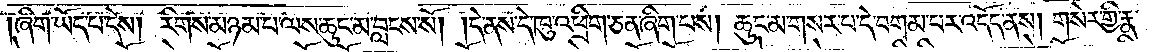ཞིག་ཡོད་པ་དེས། རིགས་མཉམ་པ་ལས་ཆུང་མ་བླངས་སོ། །དེ་ནས་དེ་ཁུ་འཕྲིག་ཅན་ཞིག་པས། ཆུང་མ་གསར་པ་དེ་བགམ་པར་འདོད་ནས། གསེར་གྱི་རྣ་
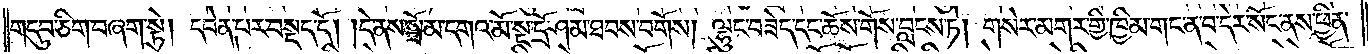གདུབ་ཅིག་བཞག་སྟེ། དབེན་པར་བསྡད་དོ། །དེ་ནས་སྦོམ་དགའ་མོ་སྔ་དྲོ་ཤམ་ཐབས་བགོས། ལྷུང་བཟེད་དང་ཆོས་གོས་བླངས་ཏེ། གསེར་མགར་གྱི་ཁྱིམ་གང་ན་བ་དེར་སོང་ནས་ཕྱིན་
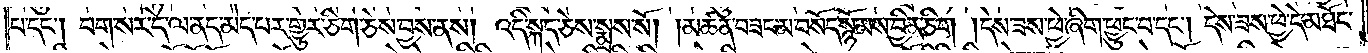པ་དང༌། བག་སར་དེ་ལ་ནད་མེད་པར་གྱུར་ཅིག་ཅེས་བྱས་ནས། འདི་སྐད་ཅེས་སྨྲས་སོ། །མཚན་བཟང་མ་བསོད་སྙོམས་བྱིན་ཅིག །དེས་ཟས་ཕྱེ་ཞིག་ཕྱུང་བ་དང༌། དེས་ཟས་ཕྱེ་དེ་མཐོང་
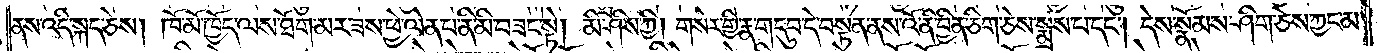ནས་འདི་སྐད་ཅེས། ཁོ་མོ་ཁྱོད་ལས་ཐོག་མར་ཟས་ཕྱེ་ལེན་པ་ནི་མི་བཟང་སྟེ། མི་ཤིས་ཀྱི། གསེར་གྱི་རྣ་གདུབ་དེ་བསྟན་ནས་འོ་ནི་བྱིན་ཅིག་ཅེས་སྨྲས་པ་དང༌། དེས་སྣོམས་ཤིག་ཅེས་ཀྱང་མ་
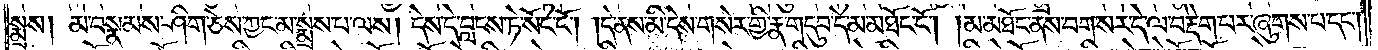སྨྲས། མ་བསྣམས་ཤིག་ཅེས་ཀྱང་མ་སྨྲས་པ་ལས། དེས་དེ་བླངས་ཏེ་སོང་ངོ༌། །དེ་ནས་མི་དེས་གསེར་གྱི་རྣ་གདུབ་དེ་མ་མཐོང་ངོ༌། །མ་མཐོང་ནས་བག་སར་དེ་ལ་བརྡེག་པར་ཞུགས་པ་དང༌།
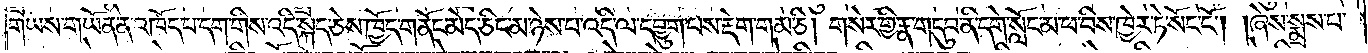གཡས་གཡོན་ནི་འཁོད་པ་དག་གིས་འདི་སྐད་ཅེས་ཁྱོད་གནོང་མེད་ཅིང་མ་ཉེས་པ་འདི་ལ་དབྱུག་པས་རྡེག་གམ་ཅི། གསེར་གྱི་རྣ་གདུབ་ནི་དགེ་སློང་མ་ཕ་བིས་ཁྱེར་ཏེ་སོང་ངོ༌། །ཞེས་སྨྲས་པ་
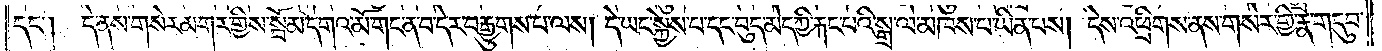དང༌། དེ་ནས་གསེར་མགར་གྱིས་སྦོམ་དགའ་མོ་གང་ན་བ་དེར་བརྒྱུགས་པ་ལས། དེ་ཡང་སྐྱེས་པ་དང་བུད་མེད་ཀྱི་རྐང་པའི་སྒྲ་ལ་མཁས་པ་ཡིན་པས། དེས་འཕྲིགས་ནས་གསེར་གྱི་རྣ་གདུབ་
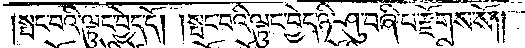སྤང་བའི་ལྟུང་བྱེད་དོ། །སྤང་བའི་ལྟུང་བྱེད་ཉི་ཤུ་བཞི་པ་རྫོགས་སོ༎
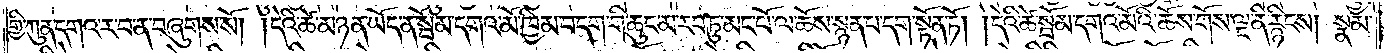གྱི་ཀུན་དགའ་ར་བ་ན་བཞུགས་སོ། །དེའི་ཚེ་མཉན་ཡོད་ན་སྦོམ་དགའ་མོ་ཁྱིམ་བདག་གི་ཆུང་མ་རབ་ཏུ་མང་པོ་ལ་ཆོས་སྙན་པ་དག་སྟོན་ཏོ། །དེའི་ཚེ་སྦོམ་དགའ་མོའི་ཆོས་གོས་ལྔ་ནི་རྙིངས། སྣམ་
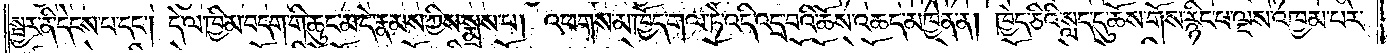སྦྱར་ནི་དེངས་པ་དང༌། དེ་ལ་ཁྱིམ་བདག་གི་ཆུང་མ་དེ་རྣམས་ཀྱིས་སྨྲས་པ། འཕགས་མ་ཁྱོད་གལ་ཏེ་འདི་འདྲ་བའི་ཆོས་འཆད་མཁྱེན་ན། ཁྱེད་ཅིའི་སླད་དུ་ཆོས་གོས་རྙིང་པ་ལྔས་འཁྱམ་པར་
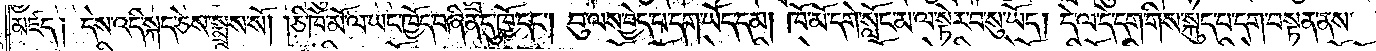མཛད། དེས་འདི་སྐད་ཅེས་སྨྲས་སོ། །ཅི་ཁོ་མོ་ལ་ཡང་ཁྱོད་བཞིན་དུ་ཁྱོ་དང༌། བུ་ལས་བྱེད་པ་དག་ཡོད་དམ། ཁོ་མོ་དགེ་སློང་མ་ལ་སྟེར་བ་སུ་ཡོད། དེ་ལ་དེ་དག་གིས་སྐུད་པ་དག་བསྟན་ནས་
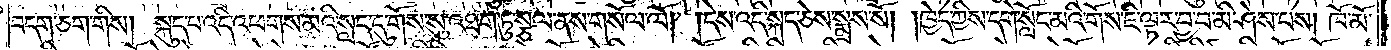བདག་ཅག་གིས། སྐུད་པ་འདི་འཕགས་མའི་སླད་དུ་གོས་སུ་འཐག་ཏུ་སྩལ་ནས་གསོལ་ལོ༑ ༑དེས་འདི་སྐད་ཅེས་སྨྲས་སོ། །ཁྱེད་ཀྱིས་དགེ་སློང་མའི་གོས་ཇི་ལྟར་བྱ་བ་མི་ཤེས་པས། ཁོ་མོ་
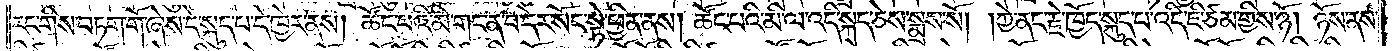རང་གིས་བཏག་གོ་ཞེས་དེ་སྐུད་པ་དེ་ཁྱེར་ནས། ཚོང་པའི་མི་གང་ན་བ་དེར་སོང་སྟེ་ཕྱིན་ནས། ཚོང་པའི་མི་ལ་འདི་སྐད་ཅེས་སྨྲས་སོ། །ཀྱེ་ནང་རྗེ་ཁྱོད་སྐུད་པ་འདི་ཇི་ཙམ་གྱིས་ཉོ། ཉོས་ནས་
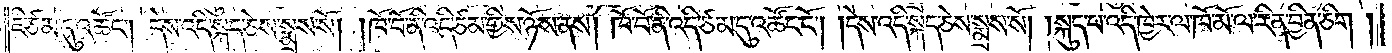ཇི་ཙམ་དུ་འཚོང༌། དེས་འདི་སྐད་ཅེས་སྨྲས་སོ། །ཁོ་བོ་ནི་འདི་ཙམ་གྱིས་ཉོས་ནས། ཁོ་བོ་ནི་འདི་ཙམ་དུ་འཚོང་ངོ༌། །དེས་འདི་སྐད་ཅེས་སྨྲས་སོ། །སྐུད་པ་འདི་ཁྱེར་ལ་ཁོ་མོ་ལ་རིན་བྱིན་ཅིག །
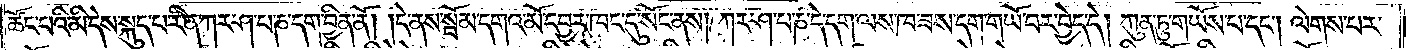ཚོང་པའི་མི་དེས་སྐུད་པ་རིན་ཀར་ཤ་པ་ཎ་དག་བྱིན་ནོ། །དེ་ནས་སྦོམ་དགའ་མོ་དབྱར་ཁང་དུ་སོང་ནས། ཀར་ཤ་པ་ཎ་དེ་དག་ལས་ཁ་ཟས་དག་གཡོ་བར་བྱེད་དེ། ཀུན་ཏུ་གཡོས་པ་དང༌། ལེགས་པར་
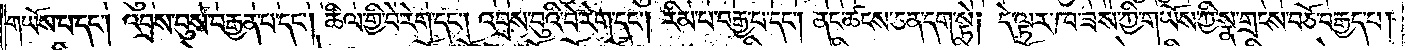གཡོས་པ་དང༌། འབྲས་བུས་བརྒྱན་པ་དང༌། ཚིལ་གྱི་བེ་རེག་དང༌། འབྲས་བུའི་བེ་རེག་དང༌། རིམ་པ་བརྒྱ་པ་དང༌། ནང་ཚངས་ཅན་དག་སྟེ། དེ་ལྟར་ཁ་ཟས་ཀྱི་གཡོས་ཀྱི་སྣ་གྲངས་བཅོ་བརྒྱད་པ།
